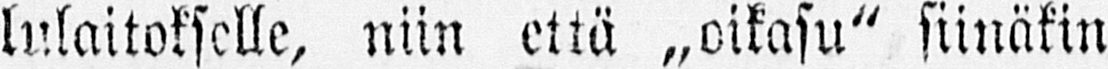lulaitokselle, niin että „oikasu" siinäkin
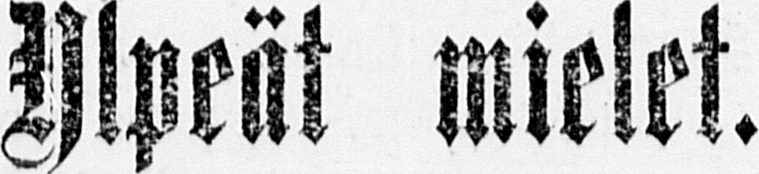Ylpeät mielet.
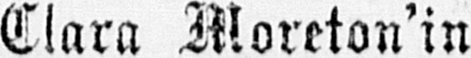Clara Moreton'in
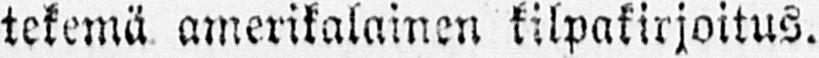tekemä amerikalainen kilpakirjoitus.
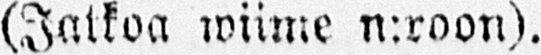(Jatkoa wiime n:roon).
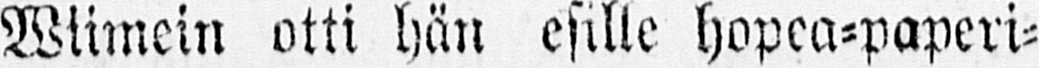Wiimein otti hän esille hopea-paperi-
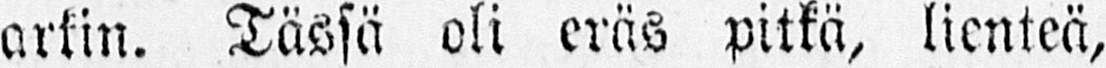arkin. Tässä oli eräs pitkä, lienteä,
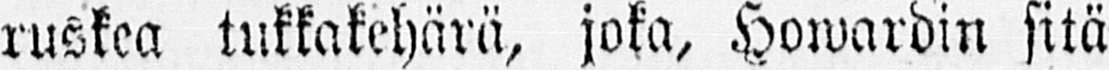ruskea tukkakehärä, joka, Howardin sitä
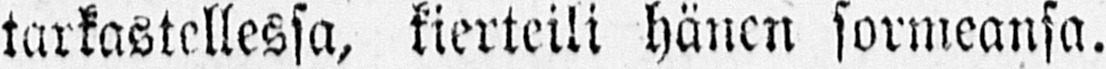tarkastellessa, kierteili hänen sormeansa.
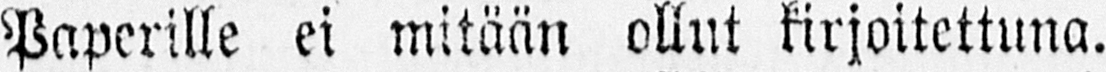Paperille ei mitään ollut kirjoitettuna.
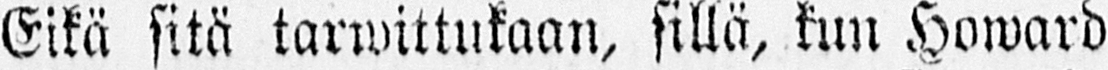Eikä sitä tarwittukaan, sillä, kun Howard
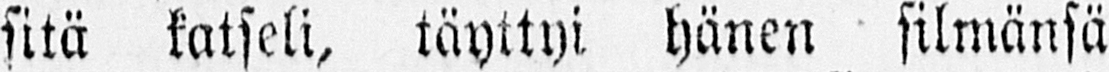sitä katseli, täyttyi hänen silmänsä
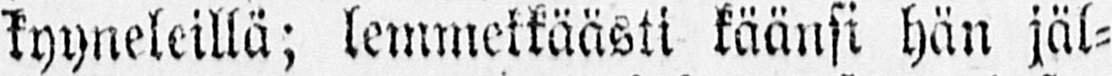kyyneleillä; lemmekkäästi käänsi hän jäl-
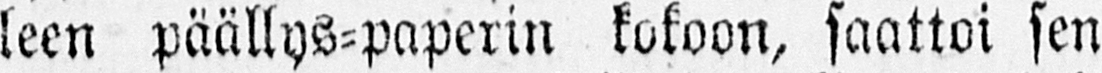leen päällys-paperin kokoon, saattoi sen
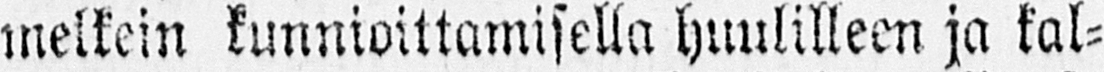melkein kunnioittamisella huulilleen ja kal-
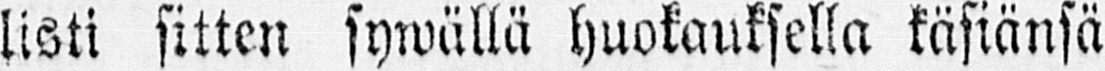listi sitten sywällä huokauksella käsiänsä
